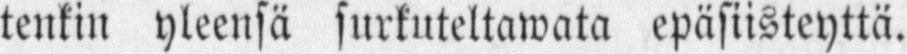tenkin yleensä surkuteltawata epäsiisteyttä.
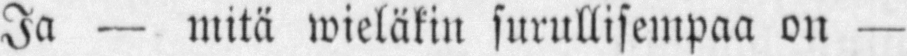Ja — mitä wieläkin surullisempaa on —
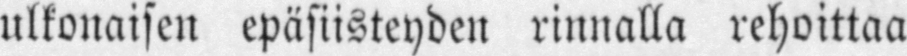ulkonaisen epäsiisteyden rinnalla rehoittaa
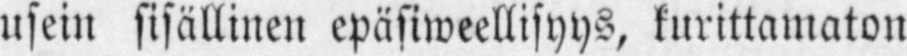usein sisällinen epäsiweellisyys, kurittamaton
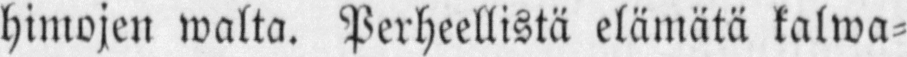himojen walta. Perheellistä elämätä kalwa-
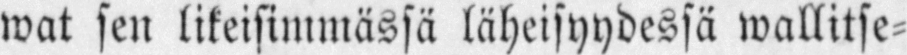wat sen likeisimmässä läheisyydessä wallitse-
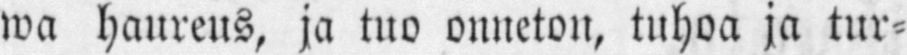wa haureus, ja tuo onneton, tuhoa ja tur-
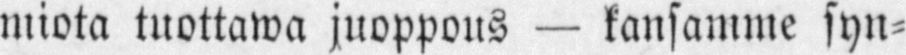miota tuottawa juoppous — kansamme syn-
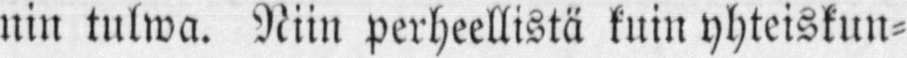nin tulwa. Niin perheellistä kuin yhteiskun-
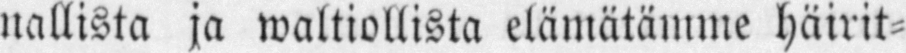nallista ja waltiollista elämätämme häirit-
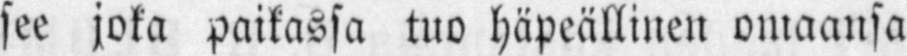see joka paikassa tuo häpeällinen omaansa
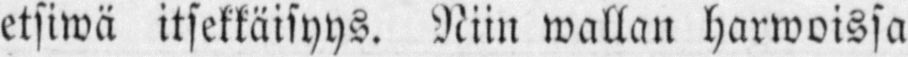etsiwä itsekkäisyys. Niin wallan harwoissa
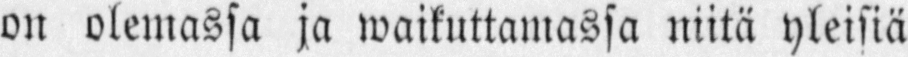on olemassa ja waikuttamassa niitä yleisiä
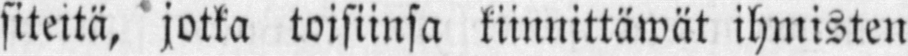siteitä, jotka toisiinsa kiinnittäwät ihmisten
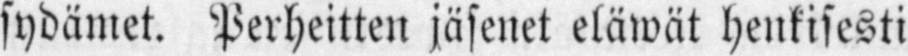sydämet. Perheitten jäsenet eläwät henkisesti
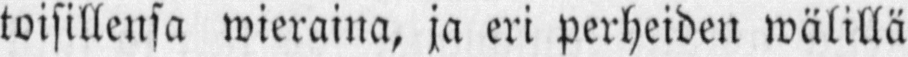toisillensa wieraina, ja eri perheiden wälillä
